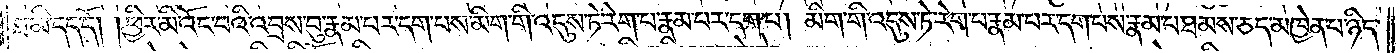ཐ་མི་དད་དོ། །ཕྱིར་མི་འོང་བའི་འབྲས་བུ་རྣམ་པར་དག་པས་མིག་གི་འདུས་ཏེ་རེག་པ་རྣམ་པར་དག་པ། མིག་གི་འདུས་ཏེ་རེག་པ་རྣམ་པར་དག་པས་རྣམ་པ་ཐམས་ཅད་མཁྱེན་པ་ཉིད་
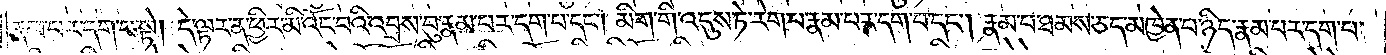རྣམ་པར་དག་པ་སྟེ། དེ་ལྟར་ན་ཕྱིར་མི་འོང་བའི་འབྲས་བུ་རྣམ་པར་དག་པ་དང༌། མིག་གི་འདུས་ཏེ་རེག་པ་རྣམ་པར་དག་པ་དང༌། རྣམ་པ་ཐམས་ཅད་མཁྱེན་པ་ཉིད་རྣམ་པར་དག་པ་
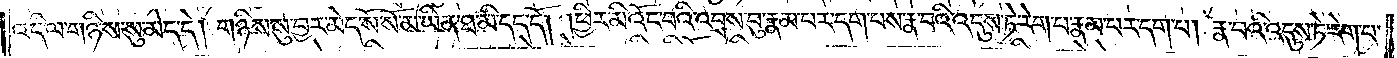འདི་ལ་གཉིས་སུ་མེད་དེ། གཉིས་སུ་བྱར་མེད་སོ་སོ་མ་ཡིན་ཐ་མི་དད་དོ། །ཕྱིར་མི་འོང་བའི་འབྲས་བུ་རྣམ་པར་དག་པས་རྣ་བའི་འདུས་ཏེ་རེག་པ་རྣམ་པར་དག་པ། རྣ་བའི་འདུས་ཏེ་རེག་པ་
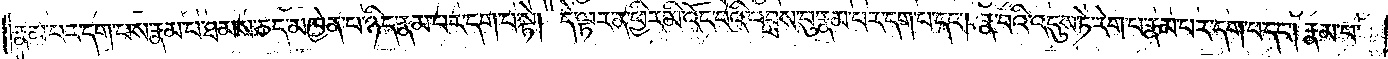རྣམ་པར་དག་པས་རྣམ་པ་ཐམས་ཅད་མཁྱེན་པ་ཉིད་རྣམ་པར་དག་པ་སྟེ། དེ་ལྟར་ན་ཕྱིར་མི་འོང་བའི་འབྲས་བུ་རྣམ་པར་དག་པ་དང༌། རྣ་བའི་འདུས་ཏེ་རེག་པ་རྣམ་པར་དག་པ་དང༌། རྣམ་པ་
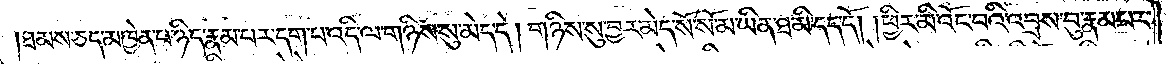ཐམས་ཅད་མཁྱེན་པ་ཉིད་རྣམ་པར་དག་པ་འདི་ལ་གཉིས་སུ་མེད་དེ། གཉིས་སུ་བྱར་མེད་སོ་སོ་མ་ཡིན་ཐ་མི་དད་དོ། །ཕྱིར་མི་འོང་བའི་འབྲས་བུ་རྣམ་པར་
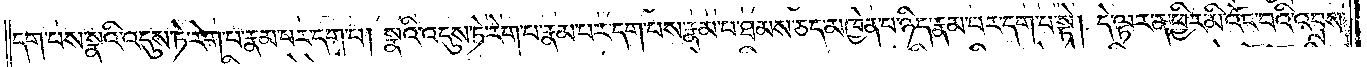དག་པས་སྣའི་འདུས་ཏེ་རེག་པ་རྣམ་པར་དག་པ། སྣའི་འདུས་ཏེ་རེག་པ་རྣམ་པར་དག་པས་རྣམ་པ་ཐམས་ཅད་མཁྱེན་པ་ཉིད་རྣམ་པར་དག་པ་སྟེ། དེ་ལྟར་ན་ཕྱིར་མི་འོང་བའི་འབྲས་
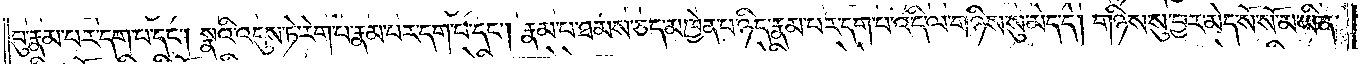བུ་རྣམ་པར་དག་པ་དང༌། སྣའི་འདུས་ཏེ་རེག་པ་རྣམ་པར་དག་པ་དང༌། རྣམ་པ་ཐམས་ཅད་མཁྱེན་པ་ཉིད་རྣམ་པར་དག་པ་འདི་ལ་གཉིས་སུ་མེད་དེ། གཉིས་སུ་བྱར་མེད་སོ་སོ་མ་ཡིན་
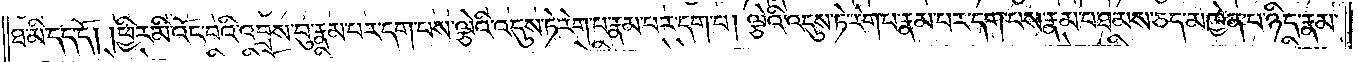ཐ་མི་དད་དོ། །ཕྱིར་མི་འོང་བའི་འབྲས་བུ་རྣམ་པར་དག་པས་ལྕེའི་འདུས་ཏེ་རེག་པ་རྣམ་པར་དག་པ། ལྕེའི་འདུས་ཏེ་རེག་པ་རྣམ་པར་དག་པས་རྣམ་པ་ཐམས་ཅད་མཁྱེན་པ་ཉིད་རྣམ་
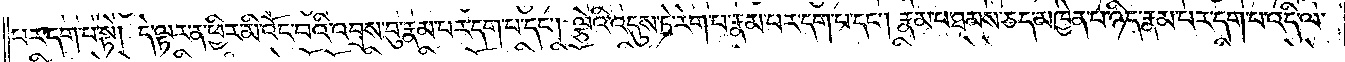པར་དག་པ་སྟེ། དེ་ལྟར་ན་ཕྱིར་མི་འོང་བའི་འབྲས་བུ་རྣམ་པར་དག་པ་དང༌། ལྕེའི་འདུས་ཏེ་རེག་པ་རྣམ་པར་དག་པ་དང༌། རྣམ་པ་ཐམས་ཅད་མཁྱེན་པ་ཉིད་རྣམ་པར་དག་པ་འདི་ལ་
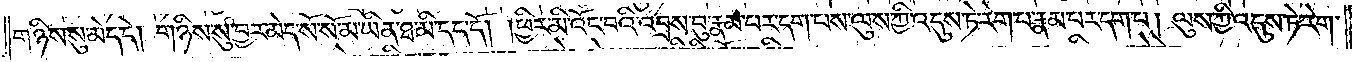གཉིས་སུ་མེད་དེ། གཉིས་སུ་བྱར་མེད་སོ་སོ་མ་ཡིན་ཐ་མི་དད་དོ། །ཕྱིར་མི་འོང་བའི་འབྲས་བུ་རྣམ་པར་དག་པས་ལུས་ཀྱི་འདུས་ཏེ་རེག་པ་རྣམ་པར་དག་པ། ལུས་ཀྱི་འདུས་ཏེ་རེག་
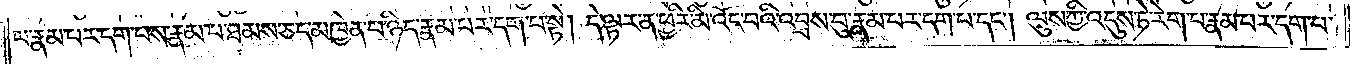པ་རྣམ་པར་དག་པས་རྣམ་པ་ཐམས་ཅད་མཁྱེན་པ་ཉིད་རྣམ་པར་དག་པ་སྟེ། དེ་ལྟར་ན་ཕྱིར་མི་འོང་བའི་འབྲས་བུ་རྣམ་པར་དག་པ་དང༌། ལུས་ཀྱི་འདུས་ཏེ་རེག་པ་རྣམ་པར་དག་པ་
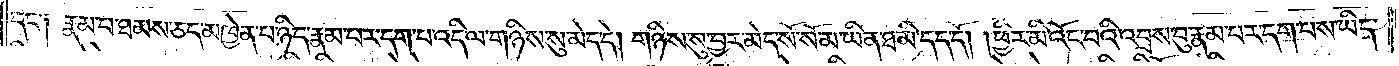དང་༑ རྣམ་པ་ཐམས་ཅད་མཁྱེན་པ་ཉིད་རྣམ་པར་དག་པ་འདི་ལ་གཉིས་སུ་མེད་དེ། གཉིས་སུ་བྱར་མེད་སོ་སོ་མ་ཡིན་ཐ་མི་དད་དོ། །ཕྱིར་མི་འོང་བའི་འབྲས་བུ་རྣམ་པར་དག་པས་ཡིད་
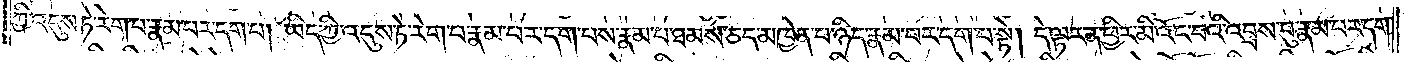ཀྱི་འདུས་ཏེ་རེག་པ་རྣམ་པར་དག་པ། ཡིད་ཀྱི་འདུས་ཏེ་རེག་པ་རྣམ་པར་དག་པས་རྣམ་པ་ཐམས་ཅད་མཁྱེན་པ་ཉིད་རྣམ་པར་དག་པ་སྟེ། དེ་ལྟར་ན་ཕྱིར་མི་འོང་བའི་འབྲས་བུ་རྣམ་པར་དག་
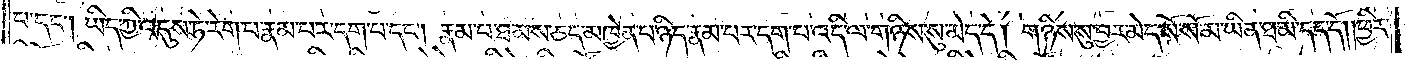པ་དང༌། ཡིད་ཀྱི་འདུས་ཏེ་རེག་པ་རྣམ་པར་དག་པ་དང༌། རྣམ་པ་ཐམས་ཅད་མཁྱེན་པ་ཉིད་རྣམ་པར་དག་པ་འདི་ལ་གཉིས་སུ་མེད་དེ། གཉིས་སུ་བྱར་མེད་སོ་སོ་མ་ཡིན་ཐ་མི་དད་དོ། །ཕྱིར་
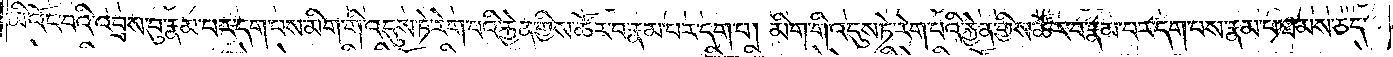མི་འོང་བའི་འབྲས་བུ་རྣམ་པར་དག་པས་མིག་གི་འདུས་ཏེ་རེག་པའི་རྐྱེན་གྱིས་ཚོར་བ་རྣམ་པར་དག་པ། མིག་གི་འདུས་ཏེ་རེག་པའི་རྐྱེན་གྱིས་ཚོར་བ་རྣམ་པར་དག་པས་རྣམ་པ་ཐམས་ཅད་
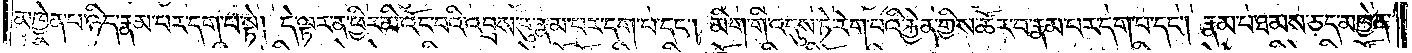མཁྱེན་པ་ཉིད་རྣམ་པར་དག་པ་སྟེ། དེ་ལྟར་ན་ཕྱིར་མི་འོང་བའི་འབྲས་བུ་རྣམ་པར་དག་པ་དང༌། མིག་གི་འདུས་ཏེ་རེག་པའི་རྐྱེན་གྱིས་ཚོར་བ་རྣམ་པར་དག་པ་དང༌། རྣམ་པ་ཐམས་ཅད་མཁྱེན་
